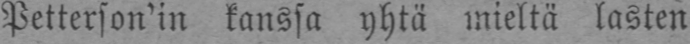Petterson'in kanssa yhtä mieltä lasten
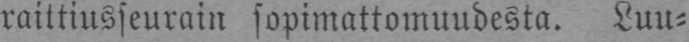raittiusseurain sopimattomuudesta. Luu-
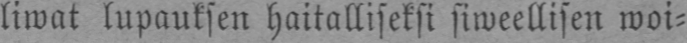liwat lupauksen haitalliseksi siweellisen woi-
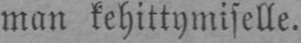man kehittymiselle.
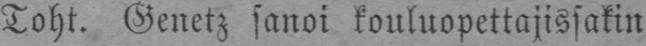Toht. Genetz sanoi kouluopettajissakin
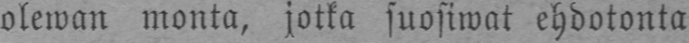olewan monta, jotka suosiwat ehdotonta
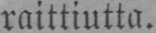raittiutta.
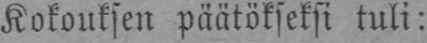Kokouksen päätökseksi tuli:
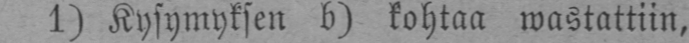1) Kysymyksen b) kohtaa wastattiin,
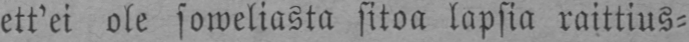ett'ei ole soweliasta sitoa lapsia raittius-
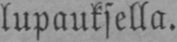lupauksella.
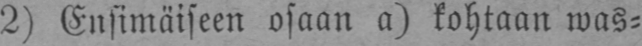2) Ensimäiseen osaan a) kohtaan was-
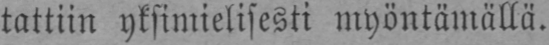tattiin yksimielisesti myöntämällä.
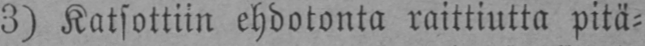3) Katsottiin ehdotonta raittiutta pitä-
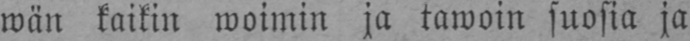wän kaikin woimin ja tawoin suosia ja
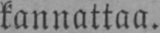kannattaa.
